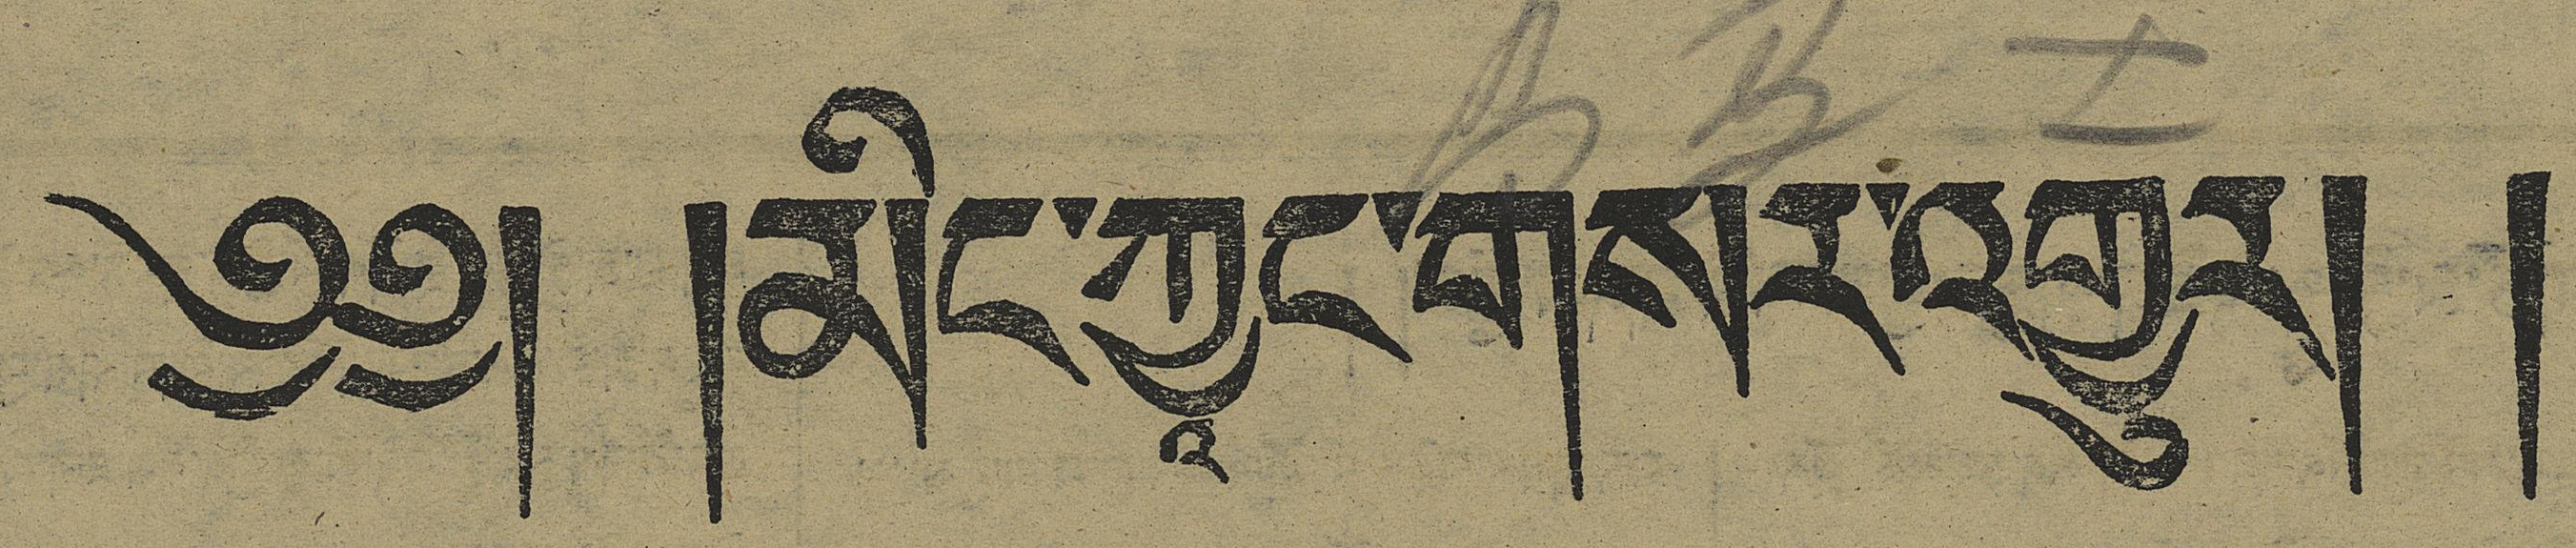༄༅། །མིང་ཀྱཱང་གསར་འགྱུར། །
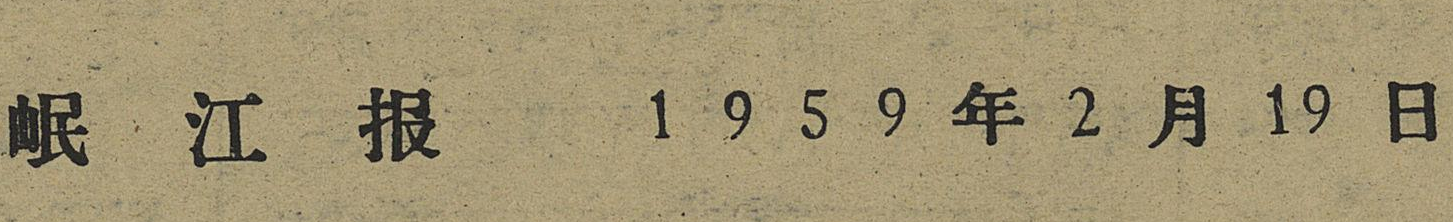报 江 报 1 9 5 9 年 2 月 19 日
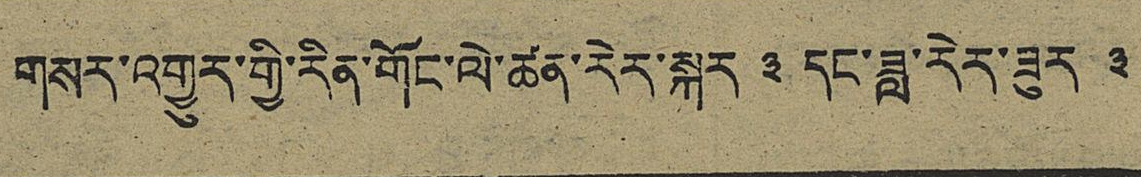གསར་འགྱུར་གྱི་རིན་གོང་ལེ་ཚན་རེར་སྐར ༣ དང་ཟླ་རེར་ཟུར ༣
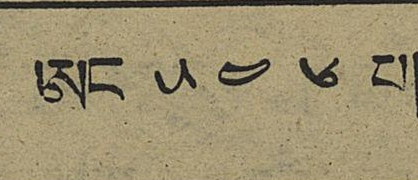ཨང ༥ ༤ ༦ པ།
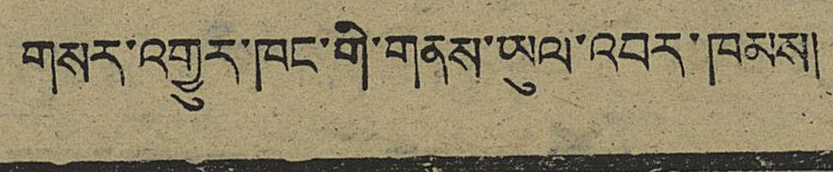གསར་འགྱུར་ཁང་གི་གནས་ཡུལ་འབར་ཁམས།
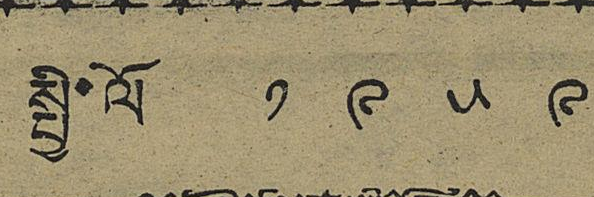སྤྱི་ལོ ༡ ༩ ༥ ༩
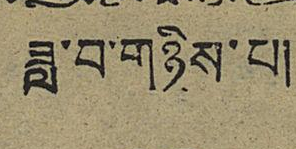ཟླ་བ་གཉིས་པ།
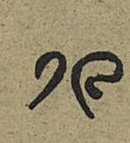༡༩
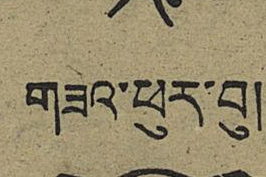གཟའ་ཕུར་བ།
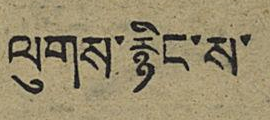ལུགས་རྙིང་ས་
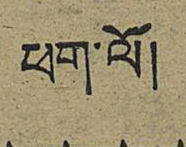ཕག་ལོ།
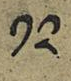༡༢
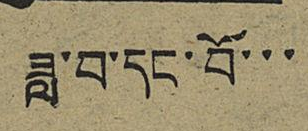ཟླ་བ་དང་བོ་་་
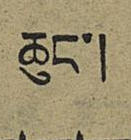ཆུང་།
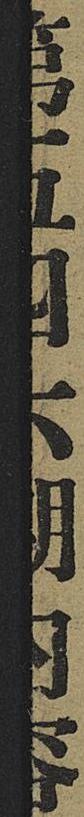第五四六期內容
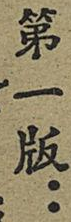第一版：
